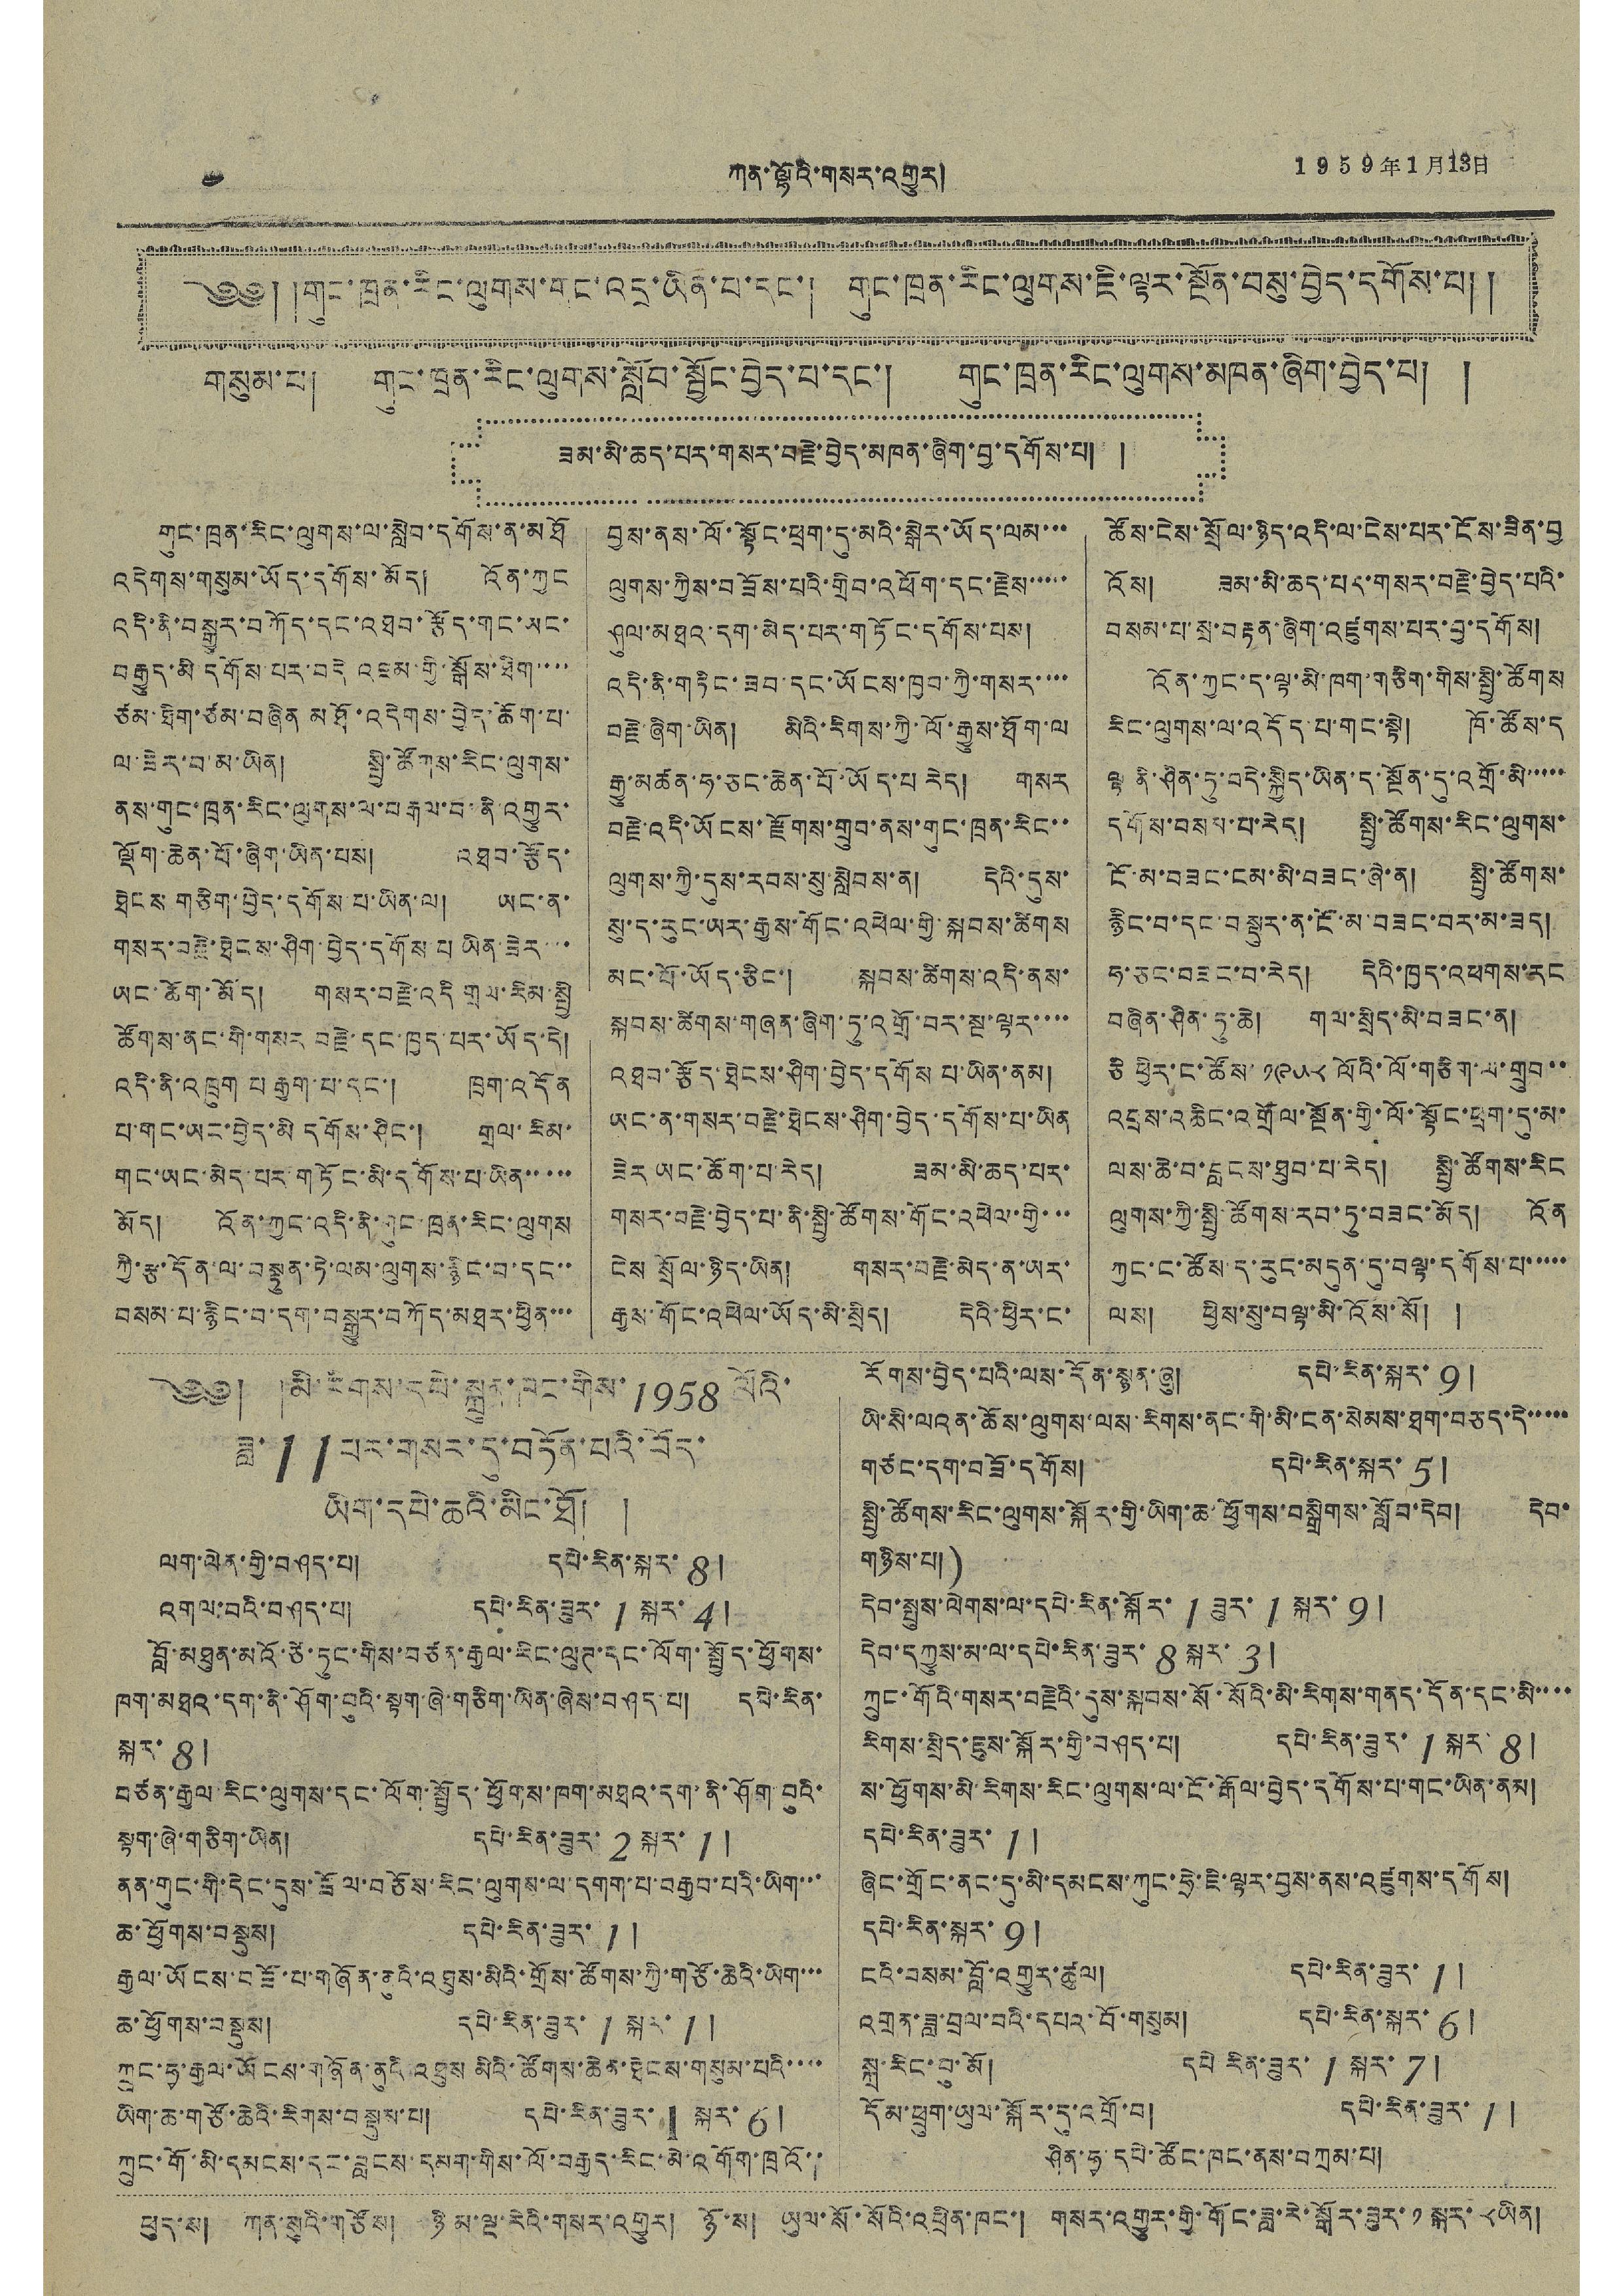༤ ཀན་ལྷོའི་གསར་འགྱུར། 1959年1月13日
༄༅། །གུང་ཁྲན་རིང་ལུགས་གང་འདྲ་ཡིན་པ་དང་། གུང་ཁྲན་རིང་ལུགས་ཇི་ལྟར་སྔོན་བསུ་བྱེད་དགོས་པ། །
གསུམ་པ། གུང་ཁྲན་རིང་ལུགས་སློབ་སྦྱོང་བྱེད་པ་དང་། གུང་ཁྲན་རིང་ལུགས་མཁན་ཞིག་བྱེད་པ། །
ཟམ་མི་ཆད་པར་གསར་བརྗེ་བྱེད་མཁན་ཞིག་བྱ་དགོས་པ། །
གུང་ཁྲན་རིང་ལུགས་ལ་སླེབ་དགོས་ན་མཐོ
འདེགས་གསུམ་ཡོད་དགོས་མོད། འོན་ཀྱང
འདི་ནི་བསྐྱུར་བཀོད་དང་འཐབ་རྩོད་གང་ཡང་
བརྒྱུད་མི་དགོས པར་བདེ འཇམ་གྱི་སྒོས་ཐིག་་་་
ཙམ་ཐིག་ཙམ་བཞིན་མཐོ་འདེགས་བྱེད་ཆོག་པ་
ལ་ཟེར་བ་མ་ཡིན། སྤྱི་ཚོགས་རིང་ལུགས་
ནས་གུང་ཁྲན་རིང་ལུགས་ལ་བརྒལ་བ་ནི་འགྱུར་
ལྡོག་ཆེན་པོ་ཞིག་ཡིན་པས། འཐབ་རྩོད་
ཐེངས་གཅིག་བྱེད་དགོས་པ་ཡིན་ལ། ཡང་ན་
གསར་བརྗེ་ཐེངས་ཤིག་བྱེད་དགོས་པ ཡིན་ཟེར་་་
ཡང་ཆོག་མོད། གསར་བརྗེ་འདི་གྲལ་རིམ་སྤྱི
ཚོགས་ནང་གི་གསར་བརྗེ་དང་ཁྱད་པར་ཡོད་དེ།
འདི་ནི་འཁྲག་པ རྒྱག་པ་དང་། ཁྲག་འདོན
པ་གང་ཡང་བྱེད་མི དགོས་ཤིང་། གྲལ་རིམ་
གང་ཡང་མེད་པར་གཏོང་མི་དགོས་པ་ཡིན་་་་་
མོད། འོན་ཀྱང་འདི་ནི་གུང་ཁྲན་རིང་ལུགས
ཀྱི་རྩ་དོན་ལ་བསྟུན་ཏེ་ལམ་ལུགས་རྙིང་བ་དང་་
བསམ་པ་རྙིང་བ་དག་བསྒྱུར་བཀོད་མཐར་ཕྱིན་་་
བྱས་ནས་ལོ་སྟོང་ཕྲག་དུ་མའི་སྒེར་ཡོད་ལམ་་་
ལུགས་ཀྱིས་བཟོས་པའི་གྲིབ་འཕོག་དང་རྗེས་་་་་
ཤུལ་མཐའ་དག་མེད་པར་གཏོང་དགོས་པས།
འདི་ནི་གཏིང་ཟབ་དང་ཡོངས་ཁྱབ་ཀྱི་གསར་་་་
བརྗེ་ཞིག་ཡིན། མིའི་རིགས་ཀྱི་ལོ་རྒྱུས་ཐོག་ལ
རྒྱུ་མཚན་ཧ་ཅང་ཆེན་པོ་ཡོད་པ་རེད། གསར་
བརྗེ་འདི་ཡོངས་རྫོགས་གྲུབ་ནས་གུང་ཁྲན་རིང་་
ལུགས་ཀྱི་དུས་རབས་སུ་སླེབས་ན། དེའི་དུས་
སུ་ད་རུང་ཡར་རྒྱས་གོང་འཕེལ་གྱི་སྐབས་ཚིགས་
མང་པོ་ཡོད་ཅིང་། སྐབས་ཚིགས་འདི་ནས་
སྐབས་ཚིགས་གཞན་ཞིག་ཏུ་འགྲོ་བར་སྔ་ལྟར་་་་
འཐབ་རྩོད་ཐེངས་ཤིག་བྱེད་དགོས་པ་ཡིན་ནམ།
ཡང་ན་གསར་བརྗེ་ཐེངས་ཤིག་བྱེད་དགོས་པ་ཡིན་
ཟེར་ཡང་ཆོག་པ་རེད། ཟམ་མི་ཆད་པར་
གསར་བརྗེ་བྱེད་པ་ནི་སྤྱི་ཚོགས་གོང་འཕེལ་གྱི་་་
ངེས་སྲོལ་ཉིད་ཡིན། གསར་བརྗེ་མེད་ན་ཡར་
རྒྱས་གོང་འཕེལ་ཡོད་མི་སྲིད། དེའི་ཕྱིར་ང་
ཚོས་ངེས་སྲོལ་ཉིད་འདི་ལ་ངེས་པར་ངོས་ཟིན་བྱ
འོས། ཟམ་མི་ཆད་པར་གསར་བརྗེ་བྱེད་པའི་
བསམ་པ་སྲ་བརྟན་ཞིག་འཛུགས་པར་བྱ་དགོས།
འོན་ཀྱང་ད་ལྟ་མི་ཁག་གཅིག་གིས་སྤྱི་ཚོགས
རིང་ལུགས་ལ་འདོད་པ་གང་སྟེ། ཁོ་ཚོས་ད
ལྟ་ནི་ཤིན་ཏུ་བདེ་སྐྱིད་ཡིན་ད་སྔོན་དུ་འགྲོ་མི་་་་་
དགོས་བསམ་པ་རེད། སྤྱི་ཚོགས་རིང་ལུགས་
ངོ་མ་བཟང་ངམ་མི་བཟང་ཞེ་ན། སྤྱི་ཚོགས་
རྙིང་བ་དང་བསྡུར་ན་ངོ་མ་བཟང་བར་མ་ཟད།
ཧ་ཅང་བཟང་བ་རེད། དེའི་ཁྱད་འཕགས་རང
བཞིན་ཤིན་ཏུ་ཆེ། གལ་སྲིད་མི་བཟང་ན།
ཅི་ཕྱིར་ང་ཚོས་ ༡༩༥༨ ལོའི་ལོ་གཅིག་ལ་གྲུབ་་
འབྲས་འཆིང་འགྲོལ་སྔོན་གྱི་ལོ་སྟོང་ཕྲག་དུ་མ་
ལས་ཆེ་བ་བླངས་ཐུབ་པ་རེད། སྤྱི་ཚོགས་རིང
ལུགས་ཀྱི་སྤྱི་ཚོགས་རབ་ཏུ་བཟང་མོད། འོན
ཀྱང་ང་ཚོས་ད་རུང་མདུན་དུ་བལྟ་དགོས་པ་་་་་
ལས། ཕྱིས་སུ་བལྟ་མི་འོས་སོ། །
༄༅། །མི་རིགས་དཔེ་སྐྲུན་ཁང་གིས་1958 ལོའི་
ཟླ་11པར་གསར་དུ་བཏོན་པའི་བོད་
ཡིག་དཔེ་ཆའི་མིང་ཐོ། །
ལག་ལེན་གྱི་བཤད་པ། དཔེ་རིང་སྐར་ 8།
འགལ་བའི་བཤད་པ། དཔེ་རིན་ཟུར་1སྐར་ 4།
བློ་མཐུན་མའོ་ཙེ་ཏུང་གིས་བཙན་རྒྱལ་རིང་ལུཊ་དང་ལོག་སྤྱོད་ཕྱོགས་
ཁག་མཐའ་དག་ནི་ཤོག་བུའི་སྟག་ཞེ་གཅིག་ཡིན་ཞེས་བཤད་པ། དཔེ་རིན་
སྐར་ 8།
བཙན་རྒྱལ་རིང་ལུགས་དང་ལོག་སྤྱོད་ཕྱོགས་ཁག་མཐའ་དག་ནི་ཤོག་བུའི་
སྟག་ཞེ་གཅིག་ཡིན། དཔེ་རིན་ཟུར་ 2 སྐར་ 1།
ནན་གུང་གི་དེང་དུས་ཟོལ་བཅོས་རིང་ལུགས་ལ་དགག་པ་བརྒྱབ་པའི་ཡིག་་་
ཆ་ཕྱོགས་བསྡུས། དཔེ་རིན་ཟུར་ 1།
རྒྱལ་ཡོངས་བཟོ་པ་གཞོན་ནུའི་འཐུས་མིའི་གྲོས་ཚོགས་ཀྱི་གཙོ་ཆེའི་ཡིག་་་
ཆ་ཕྱོགས་བསྡུས། དཔེ་རིན་ཟུར་ 1 སྐར་ 1།
ཀྲུང་ཧྭ་རྒྱལ་ཡོངས་གཞོན་ནུའི་འཐུས་མིའི་ཚོགས་ཆེན་ཐེངས་གསུམ་པའི་་་་
ཡིག་ཆ་གཙོ་ཆེའི་རིགས་བསྡུས་པ། དཔེ་རིན་ཟུར་ 1 སྐར་ 6།
ཀྲུང་གོ་མི་དམངས་དང་བླངས་དམག་གིས་ལོ་བརྒྱད་རིང་མེ་འགོག་ཁྲའོ་་
རོགས་བྱེད་པའི་ལས་དོན་སྙན་ཞུ། དཔེ་རིན་སྐར་ 9།
ཡི་སི་ལའན་ཆོས་ལུགས་ལས་རིགས་ནང་གི་མི་ངན་སེམས་ཐག་བཅད་དེ་་་་་
གཙང་དག་བཟོ་དགོས། དཔེ་རིན་སྐར་ 5།
སྤྱི་ཚོགས་རིང་ལུགས་སྐོར་གྱི་ཡིག་ཆ་ཕྱོགས་བསྒྲིགས་སློབ་དེབ། དེབ་
གཉིས་པ།)
དེབ་སྤུས་ལེགས་ལ་དཔེ་རིན་སྐོར་ 1 ཟུར་ 1 སྐར་ 9།
དེབ་དཀྱུས་མ་ལ་དཔེ་རིན་ཟུར་ 8 སྐར་ 3།
ཀྲུང་གོའི་གསར་བརྗེའི་དུས་སྐབས་སོ་སོའི་མི་རིགས་གནད་དོན་དང་མི་་་་
རིགས་སྲིད་ཇུས་སྐོར་གྱི་བཤད་པ། དཔེ་རིན་ཟུར་ 1 སྐར་ 8།
ས་ཕྱོགས་མི་རིགས་རིང་ལུགས་ལ་ངོ་རྒོལ་བྱེད་དགོས་པ་གང་ཡིན་ནམ།
དཔེ་རིན་ཟུར་ 1།
ཞིང་གྲོང་ནང་དུ་མི་དམངས་ཀུང་ཧྲེ་ཇི་ལྟར་བྱས་ནས་འཛུགས་དགོས།
དཔེ་རིན་སྐར་ 9།
ངའི་བསམ་བློ་འགྱུར་ཚུལ། དཔེ་རིན་ཟུར་ 1།
འགྲན་ཟླ་བྲལ་བའི་དཔའ་བོ་གསུམ། དཔེ་རིན་སྐར་ 6།
སྐྲ་རིང་བུ་མོ། དཔེ་རིན་ཟུར་ 1 སྐར་ 7།
དོམ་ཕྲུག་ཡུལ་སྐོར་དུ་འགྲོ་བ། དཔེ་རིན་ཟུར་ 1།
ཤིན་ཧྭ་དཔེ་ཚོང་ཁང་ནས་བཀྲམ་པ།
ཕུད་ས། ཀན་སུའི་གཙོས། ཉི་མ་ལྔ་རེའི་གསར་འགྱུར། ཉོ་ས། ཡུལ་སོ་སོའི་འཕྲིན་ཁང་། གསར་འགྱུར་གྱི་གོང་ཟླ་རེ་སྒོར་ཟུར་ ༡ སྐར་ ༨ ཡིན།
